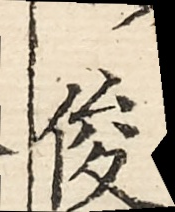俊
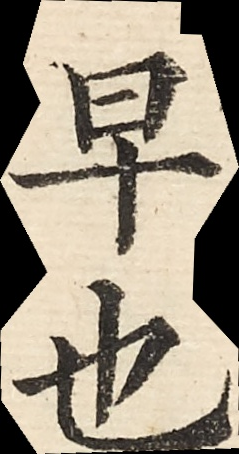早也
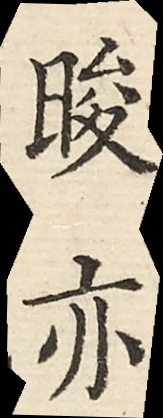晙亦
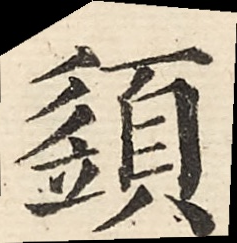䇓
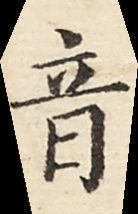音
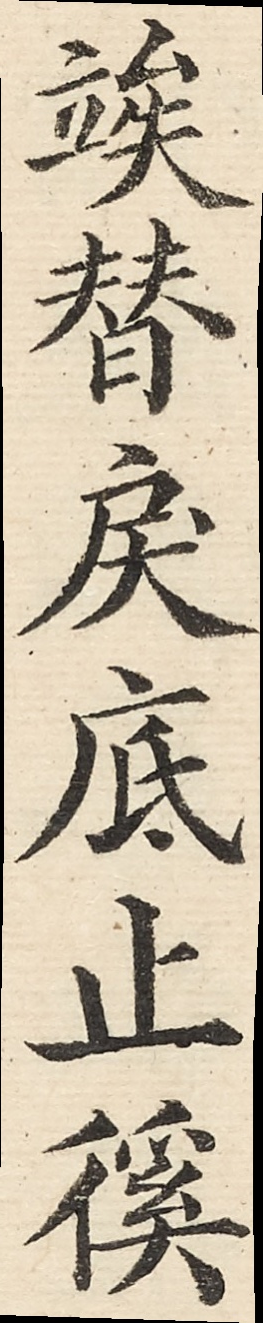竢替戾底止徯
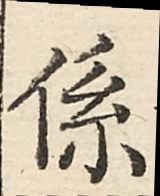係
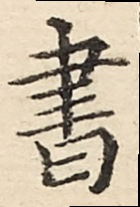書
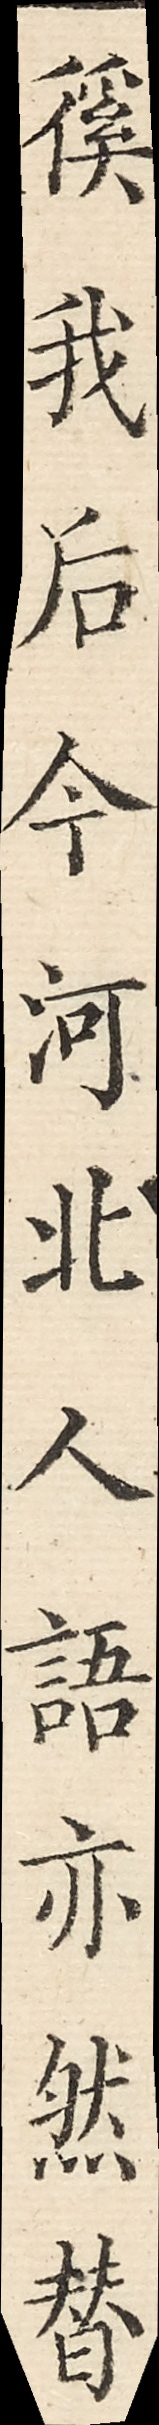徯我后今河北人語亦然替
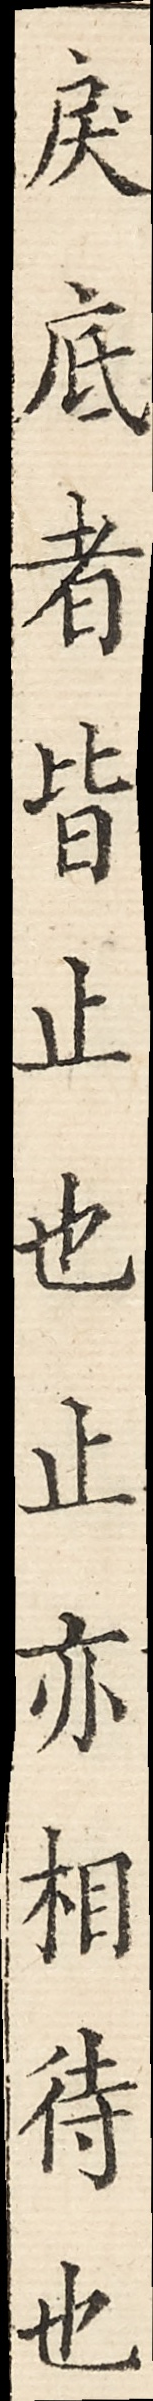戾底者皆止也止亦相待也
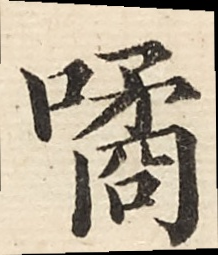噊
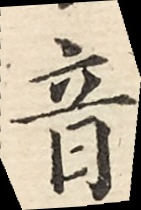音
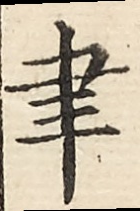聿
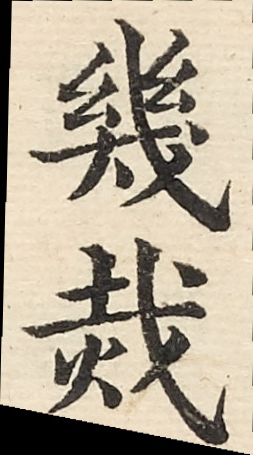幾烖
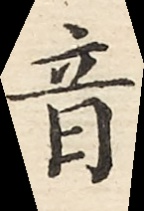音
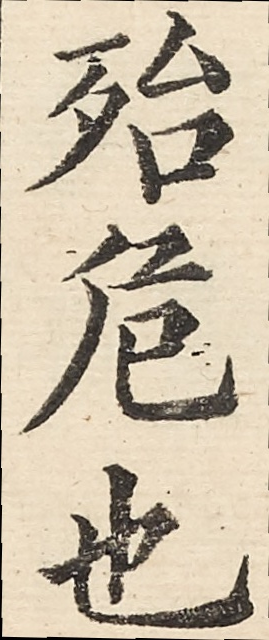殆危也
